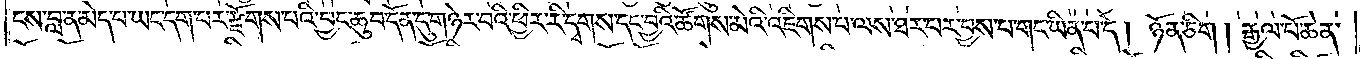ངས་བླ་ན་མེད་པ་ཡང་དག་པར་རྫོགས་པའི་བྱང་ཆུབ་དོན་དུ་གཉེར་བའི་ཕྱིར་རི་དྭགས་དང་བྱའི་ཚོགས་མེའི་འཇིགས་པ་ལས་ཐར་པར་བྱས་པ་གང་ཡིན་པ་དེ། ཉོན་ཅིག །རྒྱལ་པོ་ཆེན་
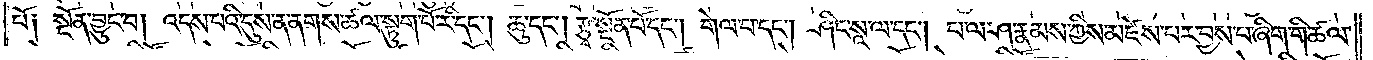པོ། སྔོན་བྱུང་བ། འདས་པའི་དུས་ན་ནགས་ཚལ་སྟུག་པོ་རི་དང༌། ཆུ་དང༌། རྩྭ་སྔོན་པོ་དང༌། གེལ་བ་དང༌། ཤིང་སཱ་ལ་དང༌། པ་ལ་ཤ་རྣམས་ཀྱིས་མཛེས་པར་བྱས་པ་ཞིག་གི་ཚལ་
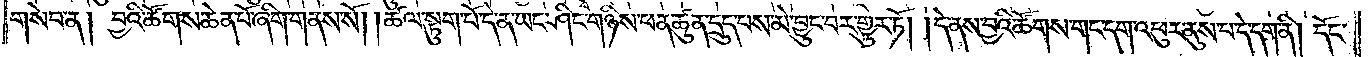གསེབ་ན། བྱའི་ཚོགས་ཆེན་པོ་ཞིག་གནས་སོ། །ཚལ་སྟུག་པོ་དེ་ན་ཡང་ཤིང་གཉིས་ཕན་ཚུན་དྲུད་པས་མེ་བྱུང་བར་གྱུར་ཏོ། །དེ་ནས་བྱའི་ཚོགས་གང་དག་འཕུར་ནུས་པ་དེ་དག་ནི། དོང་
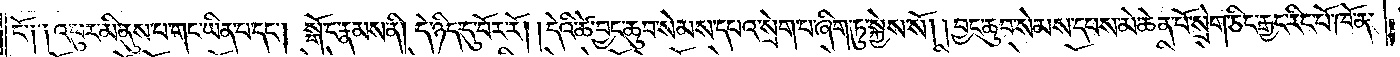ངོ༌། །འཕུར་མི་ནུས་པ་གང་ཡིན་པ་དང༌། སྒོ་ང་རྣམས་ནི། དེ་ཉིད་དུ་བོར་རོ། །དེའི་ཚེ་བྱང་ཆུབ་སེམས་དཔའ་སྲེག་པ་ཞིག་ཏུ་སྐྱེས་སོ། །བྱང་ཆུབ་སེམས་དཔས་མེ་ཆེན་པོ་སྲེག་ཅིང་རྒྱང་རིང་པོ་ཁོ་ན་
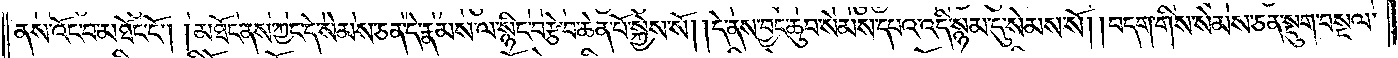ནས་འོང་བ་མཐོང་ངོ༌། །མཐོང་ནས་ཀྱང་དེ་སེམས་ཅན་དེ་རྣམས་ལ་སྙིང་བརྩེ་བ་ཆེན་པོ་སྐྱེས་སོ། །དེ་ནས་བྱང་ཆུབ་སེམས་དཔའ་འདི་སྙམ་དུ་སེམས་སོ། །བདག་གིས་སེམས་ཅན་སྡུག་བསྔལ་
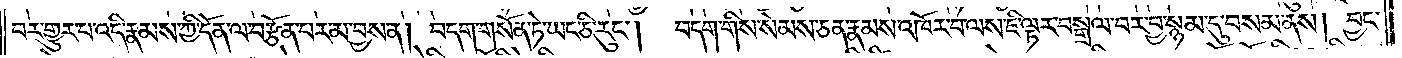བར་གྱུར་པ་འདི་རྣམས་ཀྱི་དོན་ལ་བརྩོན་པར་མ་བྱས་ན། བདག་གསོན་ཏེ་ཡང་ཅི་རུང༌། བདག་གིས་སེམས་ཅན་རྣམས་འཁོར་བ་ལས་ཇི་ལྟར་བསྒྲལ་བར་བྱ་སྙམ་དུ་བསམ་ནས། བྱང་
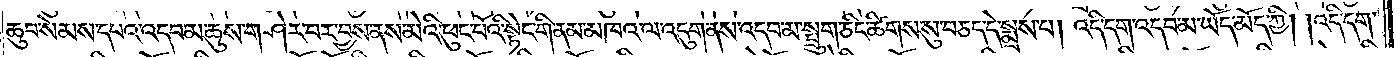ཆུབ་སེམས་དཔའ་འདབ་མ་ཆུས་གཤེར་བར་བྱས་ནས་མེའི་ཕུང་པོའི་སྟེང་གི་ནམ་མཁའ་ལ་འདུག་ནས་འདབ་མ་སྤྲུག་ཅིང་ཚིགས་སུ་བཅད་དེ་སྨྲས་པ། འདི་དག་འདབ་མ་ཡོད་མོད་ཀྱི། །འདི་དག་
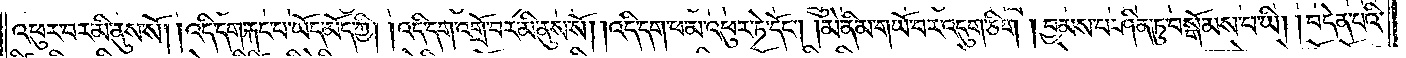འཕུར་བར་མི་ནུས་སོ། །འདི་དག་རྐང་པ་ཡོད་མོད་ཀྱི། །འདི་དག་འགྲོ་བར་མི་ནུས་སོ། །འདི་དག་ཕ་མ་འཕུར་ཏེ་དོང༌། །མེ་ནི་མ་གཡོ་བར་འདུག་ཅིག །བྱམས་པ་ཤིན་ཏུ་བསྒོམས་པ་ཡི། །བདེན་པའི་
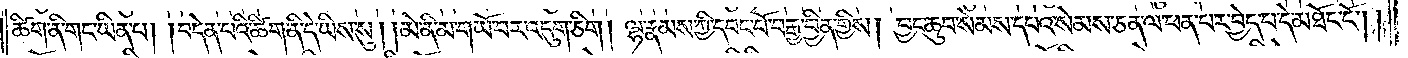ཚིག་ནི་གང་ཡིན་པ། །བདེན་པའི་ཚིག་ནི་དེ་ཡིས་སུ། །མེ་ནི་མ་གཡོ་བར་འདུག་ཅིག །ལྷ་རྣམས་ཀྱི་དབང་པོ་བརྒྱ་བྱིན་གྱིས། བྱང་ཆུབ་སེམས་དཔའ་སེམས་ཅན་ལ་ཕན་པར་བྱེད་པ་དེ་མཐོང་ངོ༌། །
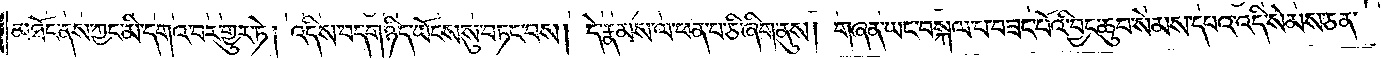མཐོང་ནས་ཀྱང་མི་དགའ་བར་གྱུར་ཏེ། འདིས་བདག་ཉིད་ཡོངས་སུ་བཏང་བས། དེ་རྣམས་ལ་ཕན་པ་ཅི་ཞིག་ནུས། གཞན་ཡང་བསྐལ་པ་བཟང་པོའི་བྱང་ཆུབ་སེམས་དཔའ་འདི་སེམས་ཅན་
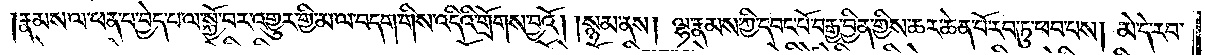།རྣམས་ལ་ཕན་པ་བྱེད་པ་ལ་སྐྱོ་བར་འགྱུར་གྱི་མ་ལ་བདག་གིས་འདིའི་གྲོགས་བྱའོ། །སྙམ་ནས། ལྷ་རྣམས་ཀྱི་དབང་པོ་བརྒྱ་བྱིན་གྱིས་ཆར་ཆེན་པོ་རབ་ཏུ་ཕབ་པས། མེ་དེ་རབ་
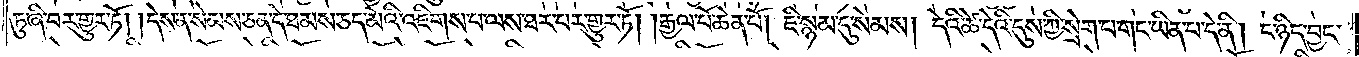ཏུ་ཞི་བར་གྱུར་ཏོ། །དེས་ན་སེམས་ཅན་དེ་ཐམས་ཅད་མེའི་འཇིགས་པ་ལས་ཐར་པར་གྱུར་ཏོ། །རྒྱལ་པོ་ཆེན་པོ། ཇི་སྙམ་དུ་སེམས། དེའི་ཚེ་དེའི་དུས་ཀྱི་སྲེག་པ་གང་ཡིན་པ་དེ་ནི། ང་ཉིད་བྱང་
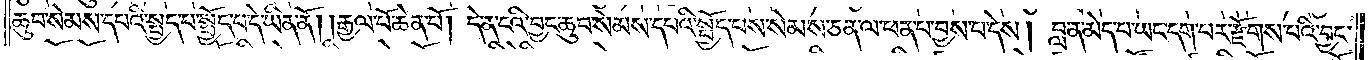ཆུབ་སེམས་དཔའི་སྤྱད་པ་སྤྱོད་པ་དེ་ཡིན་ནོ། །རྒྱལ་པོ་ཆེན་པོ། དེ་ན་ངའི་བྱང་ཆུབ་སེམས་དཔའི་སྤྱོད་པས་སེམས་ཅན་ལ་ཕན་པ་བྱས་པ་དེས། བླ་ན་མེད་པ་ཡང་དག་པར་རྫོགས་པའི་བྱང་
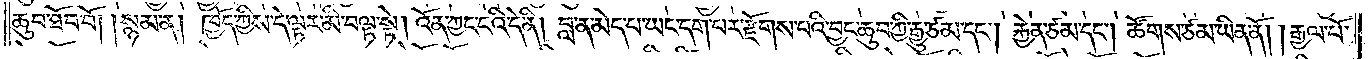ཆུབ་ཐོབ་བོ། །སྙམ་ན། ཁྱོད་ཀྱིས་དེ་ལྟར་མི་བལྟ་སྟེ། འོན་ཀྱང་ངའི་དེ་ནི། བླ་ན་མེད་པ་ཡང་དག་པར་རྫོགས་པའི་བྱང་ཆུབ་ཀྱི་རྒྱུ་ཙམ་དང༌། རྐྱེན་ཙམ་དང༌། ཚོགས་ཙམ་ཡིན་ནོ། །རྒྱལ་པོ་
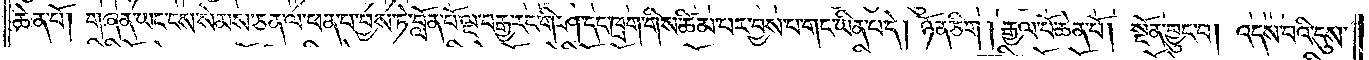ཆེན་པོ། གཞན་ཡང་ངས་སེམས་ཅན་ལ་ཕན་པ་བྱས་ཏེ་བློན་པོ་ལྔ་བརྒྱ་རང་གི་ཤ་དང་ཁྲག་གིས་ཚིམ་པར་བྱས་པ་གང་ཡིན་པ་དེ། ཉོན་ཅིག །རྒྱལ་པོ་ཆེན་པོ། སྔོན་བྱུང་བ། འདས་པའི་དུས་
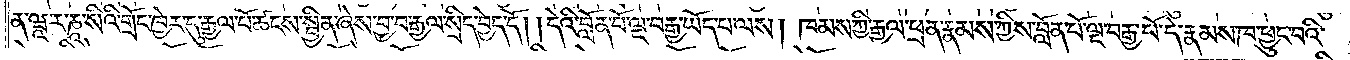ན་ཝཱ་ར་ཎཱ་སིའི་གྲོང་ཁྱེར་དུ་རྒྱལ་པོ་ཚངས་སྦྱིན་ཞེས་བྱ་བ་རྒྱལ་སྲིད་བྱེད་དོ། །དེའི་བློན་པོ་ལྔ་བརྒྱ་ཡོད་པ་ལས། ཁམས་ཀྱི་རྒྱལ་ཕྲན་རྣམས་ཀྱིས་བློན་པོ་ལྔ་བརྒྱ་པོ་དེ་རྣམས་ཁ་ཕྱུང་བའི་
